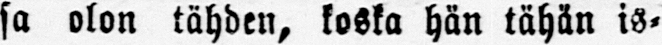sa olon tähden, koska hän tähän is-
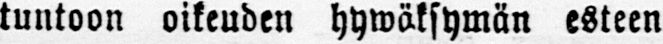tuntoon oikeuden hywäksymän esteen
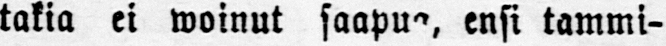takia ei woinut saapua, ensi tammi-
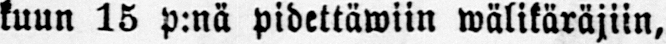kuun 15 p:nä pidettäwiin wälikäräjiin,
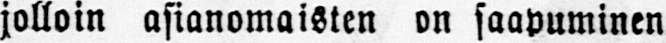jolloin asianomaisten on saapuminen
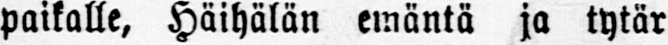paikalle, Häihälän emäntä ja tytär
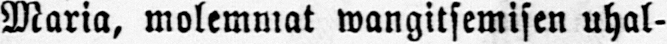Maria, molemmat wangitsemisen uhal-
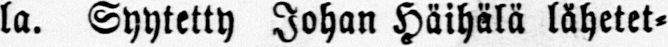la. Syytetty Johan Häihälä lähetet-
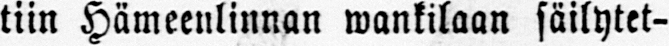tiin Hämeenlinnan wankilaan säilytet-
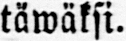täwäksi.
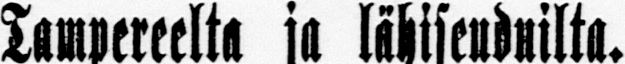Tampereelta ja lähiseuduilta.
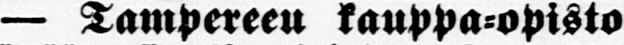— Tampereen kauppa-opisto
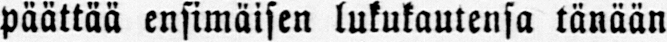päättää ensimäisen lukukautensa tänään
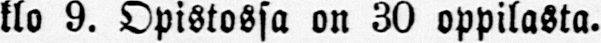klo 9. Opistossa on 30 oppilasta.
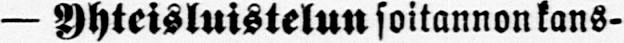— Yhteisluistelun soitannon kans-
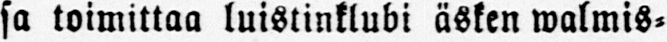sa toimittaa luistinklubi äsken walmis-
